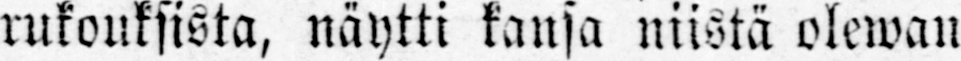rukouksista, näytti kansa niistä olewan
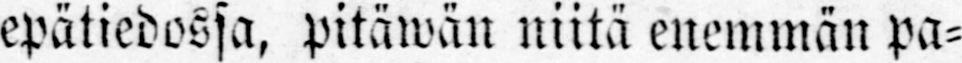epätiedossa, pitäwän niitä enemmän pa-
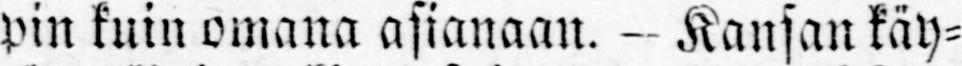pin kuin omana asianaan. — Kansan käy-
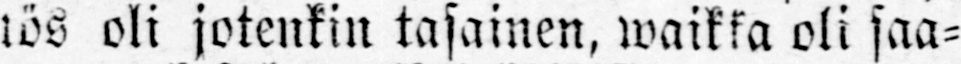tös oli jotenkin tasainen, waikka oli saa-
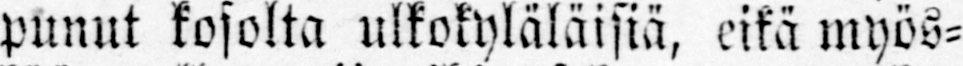punut kosolta ulkokyläläisiä, eikä myös-
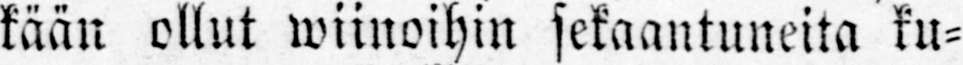kään ollut wiinoihin sekaantuneita ku-
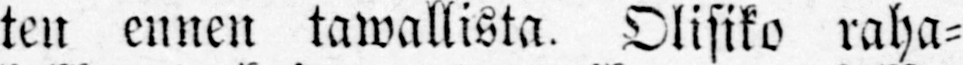ten ennen tawallista, Olisiko raha-
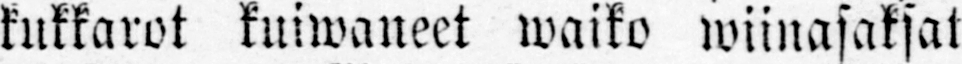kukkarot kuiwaneet waiko wiinasaksat
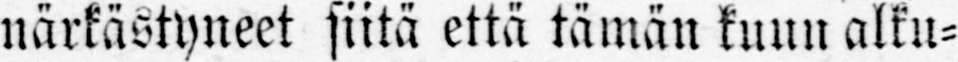närkästyneet siitä että tämän kuun alku-
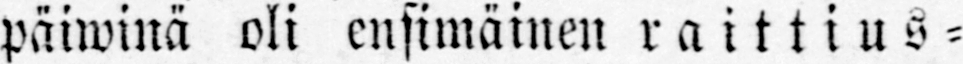päiwinä oli ensimäinen raittius -
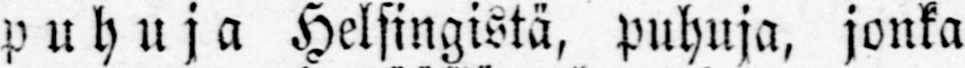puhuja Helsingistä, puhuja, jonka
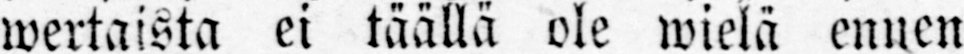wertaista ei täällä ole wielä ennen
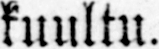kuultu.
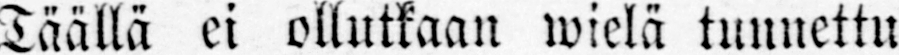Täällä ei ollutkaan wielä tunnettu
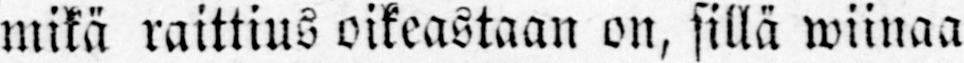mikä raittius oikeastaan on, sillä wiinaa
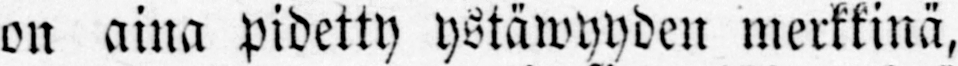on aina pidetty ystäwyyden merkkinä,
